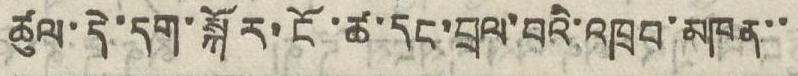ཚུལ་དེ་དག་སྐོར་ངོ་ཚ་དང་བྲལ་བའི་འཁྲབ་མཁན་་
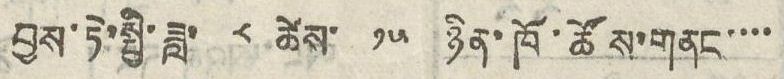བྱས་ཏེ་སྤྱི་ཟླ་ ༨ ཚེས་ ༡༥ ཉིན་ཁོ་ཚོས་གནང་་་་
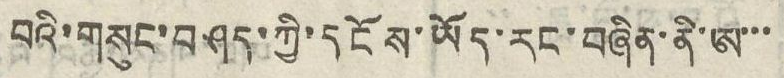བའི་གསུང་བཤད་ཀྱི་དངོས་ཡོད་རུང་བཞིན་ནི་ཨ་་་
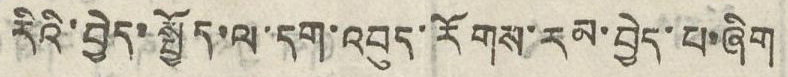རེའི་བྱེད་སྤྱོད་ལ་དག་འབུད་རོགས་རམ་བྱེད་པ་ཞིག
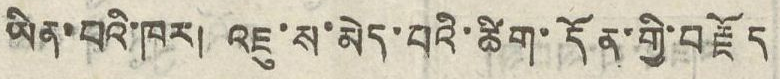ཡིན་པའི་ཁར། འཇུ་ས་མེད་པའི་ཚིག་དོན་གྱི་བརྗོད
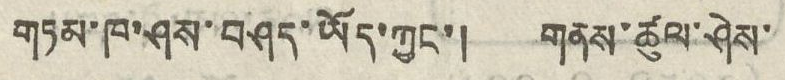གཏམ་ཁ་ཤས་བཤད་ཡོད་ཀྱང་། གནས་ཚུལ་ཤེས་
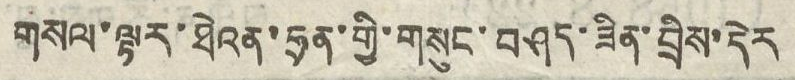གསལ་ལྟར་ཐེའན་ཧྲན་གྱི་གསུང་བཤད་ཟིན་བྲིས་དེར
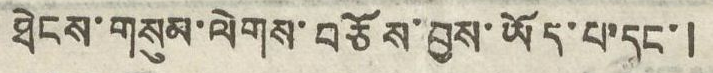ཐེངས་གསུམ་ལེགས་བཅོས་བྱས་ཡོད་པ་དང་།
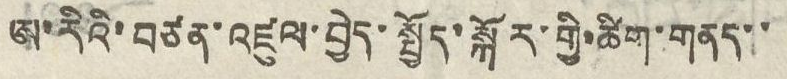ཨ་རིའི་བཙན་འཛུལ་བྱེད་སྤྱོད་སྐོར་གྱི་ཚིག་གནད་་
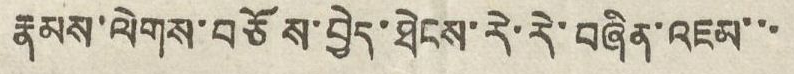རྣམས་ལེགས་བཅོས་བྱེད་ཐེངས་རེ་རེ་བཞིན་འཇམ་་་
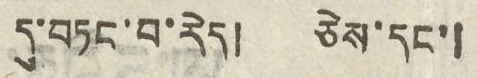དུ་བཏང་བ་རེད། ཅེས་དང་།
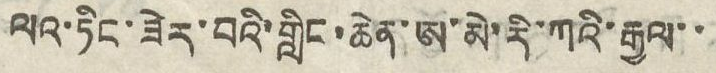ལའ་ཏིང་ཟེར་བའི་གླིང་ཆེན་ཨ་མེ་རི་ཀའི་རྒྱལ་་
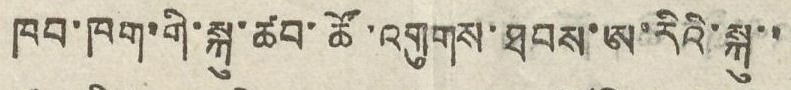ཁབ་ཁག་གི་སྐུ་ཚབ་ཚོ་འགུགས་ཐབས་ཨ་རིའི་སྐུ་་
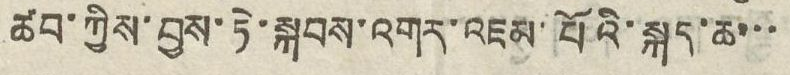ཚབ་ཀྱིས་བྱས་ཏེ་སྐབས་འགར་འཇམ་པོའི་སྐད་ཆ་་་
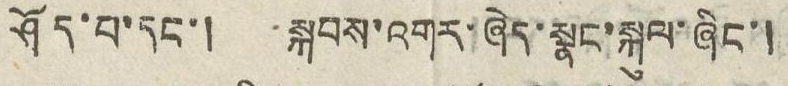ཤོད་པ་དང་། སྐབས་འགར་ཞེད་སྣང་སྐུལ་ཞིང་།
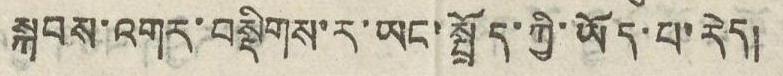སྐབས་འགར་བསྡིགས་རུ་ཡང་སྤྲོད་ཀྱི་ཡོད་པ་རེད།
